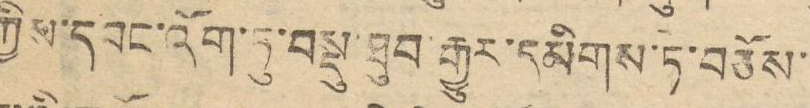ཀྱིས་དབང་འོག་ཏུ་བསྡུས་ཐུབ་རྒྱུར་དམིགས་ཏེ་བཅོས་
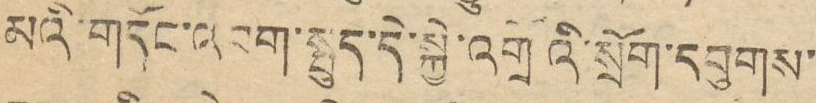མའི་གདོང་འབག་སྤུད་དེ་སྐྱེ་འགྲོའི་སྲོག་དབུགས་
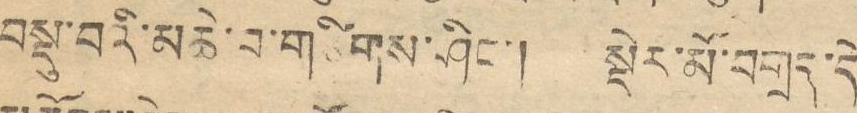བསྡུ་བའི་མཆེ་བ་གཙིགས་ཤིང་། སྡེར་མོ་བགྲད་དེ་
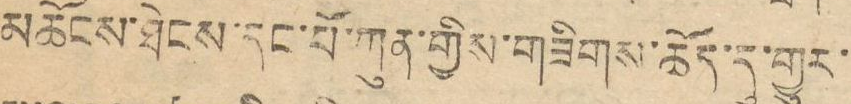མཆོངས་ཐེངས་དང་པོ་ཀུན་གྱིས་གཟིགས་ཆོད་དུ་གྱུར་
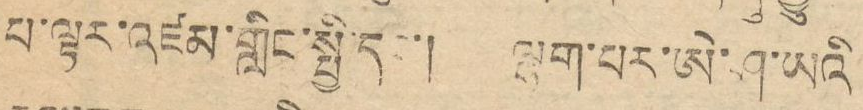པ་ལྟར་འཛམ་གླིང་སྤྱི་དང་། ལྷག་པར་ཨེ་ཤ་ཡའི
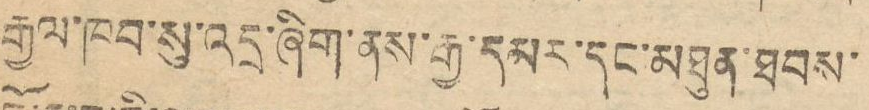རྒྱལ་ཁབ་སུ་འདྲ་ཞིག་ནས་རྒྱ་དམར་དང་མཐུན་ཐབས་
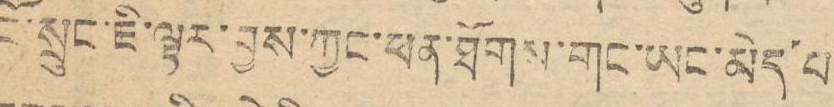ངོ་སྲུང་ཇི་ལྟར་བྱས་ཀྱང་ཕན་ཐོགས་གང་ཡང་མེད་པ་
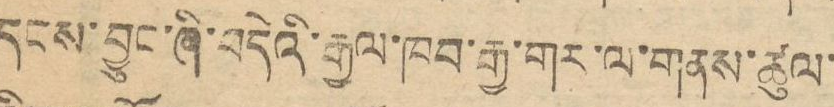དངས་བྱུང་ཞི་བདེའི་རྒྱལ་ཁབ་རྒྱ་གར་ལ་གནས་ཚུལ་
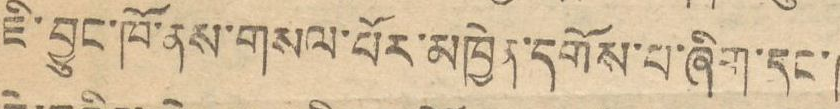ཇི་བྱུང་ཁོ་ནས་གསལ་པོར་མཁྱེན་དགོས་པ་ཞིག་དང་།
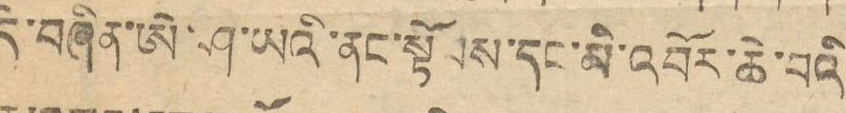དེ་བཞིན་ཨེ་ཤ་ཡའི་ནང་སྟོབས་དང་མི་འབོར་ཆེ་བའི
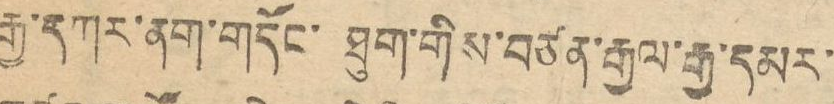རྒྱ་དཀར་ནག་གདོང་ཐུག་གིས་བཙན་རྒྱལ་རྒྱ་དམར་
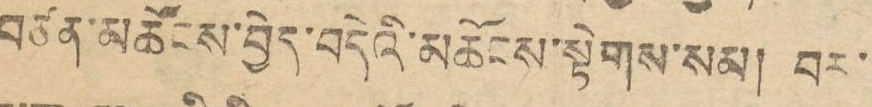བཙན་མཚོངས་བྱེད་བདེའི་མཆོངས་སྟེགས་སམ། བར་
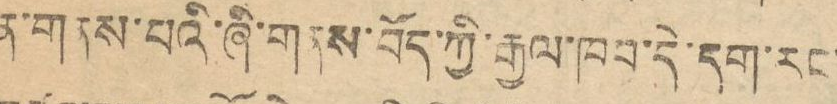ན་གནས་པའི་ཞི་གནས་བོད་ཀྱི་རྒྱལ་ཁབ་དེ་དག་རང་
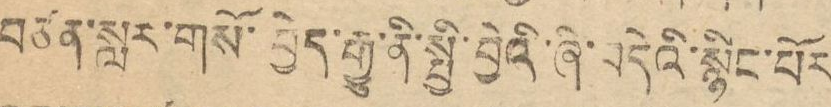བཙན་སླར་གསོ་བྱེད་རྒྱུ་ནི་སྤྱི་བྱེའི་ཞི་བདེའི་སྙིང་པོར
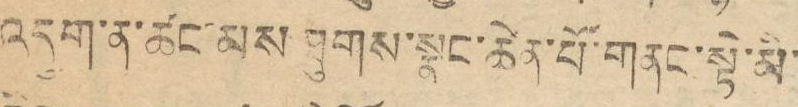འདུག་ན་ཚང་མས ཐུགས་སྣང་ཆེན་པོ་གནང་སྟེ་མི་
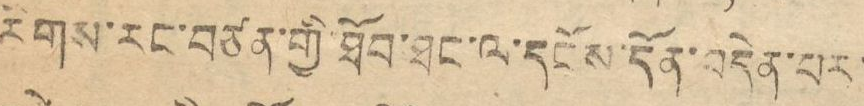རིགས་རང་བཙན་གྱི་ཐོབ་ཐང་ལ་དངོས་དོན་བདེན་པར་
